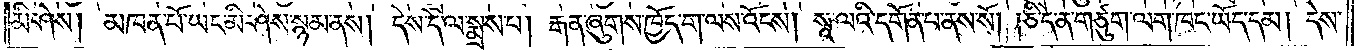མི་ཤེས། མཁན་པོ་ཡང་མི་ཤེས་སྙམ་ནས། དེས་དེ་ལ་སྨྲས་པ། རྒན་ཞུགས་ཁྱོད་ག་ལས་འོངས། སཱ་ལའི་དགོན་པ་ནས་སོ། །ཅི་དེ་ན་གཙུག་ལག་ཁང་ཡོད་དམ། དེས་
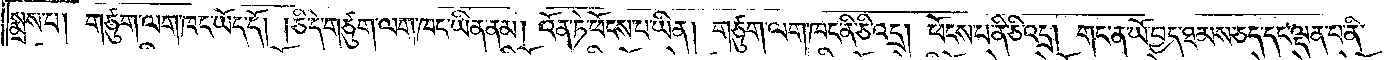སྨྲས་པ། གཙུག་ལག་ཁང་ཡོད་དོ། །ཅི་དེ་གཙུག་ལག་ཁང་ཡིན་ནམ། འོན་ཏེ་ཕོངས་པ་ཡིན། གཙུག་ལག་ཁང་ནི་ཅི་འདྲ། ཕོངས་པ་ནི་ཅི་འདྲ། གང་ན་ཡོ་བྱད་ཐམས་ཅད་དང་ལྡན་པ་ནི་
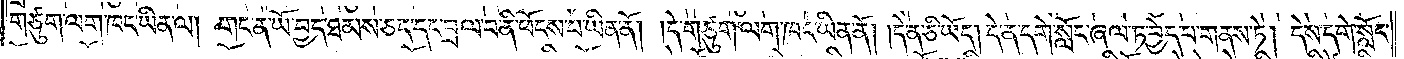གཙུག་ལག་ཁང་ཡིན་ལ། གང་ན་ཡོ་བྱད་ཐམས་ཅད་དང་བྲལ་བ་ནི་ཕོངས་པ་ཡིན་ནོ། །དེ་གཙུག་ལག་ཁང་ཡིན་ནོ། །དེ་ན་ཅི་ཡོད། དེ་ན་དགེ་སློང་ཞལ་ཏ་བྱེད་པ་གནས་ཏེ། དེས་དགེ་སློང་
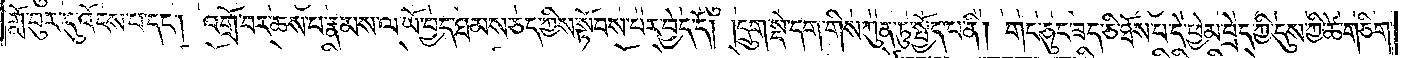གློ་བུར་དུ་འོངས་པ་དང༌། འགྲོ་བར་ཆས་པ་རྣམས་ལ་ཡོ་བྱད་ཐམས་ཅད་ཀྱིས་སྟོབས་པར་བྱེད་དོ། །དྲུག་སྡེ་དག་གིས་ཀུན་ཏུ་སྤྱོད་པ་ནི། གང་ཅུང་ཟད་ཅི་ཐོས་པ་དེ་ཕྱེམ་བྲེད་ཀྱི་དུས་ཀྱི་ཚེ་གཅིག་
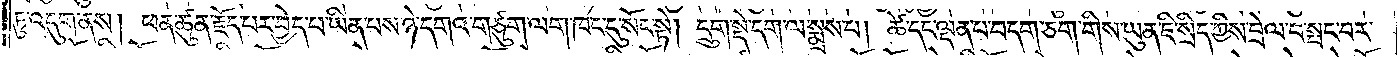ཏུ་འདུག་ནས། ཕན་ཚུན་རྗོད་པར་བྱེད་པ་ཡིན་པས་ཉེ་དགའ་གཙུག་ལག་ཁང་དུ་སོང་སྟེ། དྲུག་སྡེ་དག་ལ་སྨྲས་པ། ཚེ་དང་ལྡན་པ་བདག་ཅག་གིས་ཡུན་ཇི་སྲིད་ཀྱིས་བྲེལ་བ་སྤང་བར་
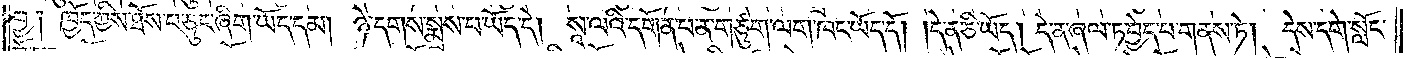བྱ༑ ཁྱོད་ཀྱིས་ཐོས་པ་ཅུང་ཞིག་ཡོད་དམ། ཉེ་དགས་སྨྲས་པ་ཡོད་དེ། སཱ་ལའི་དགོན་པ་ན་གཙུག་ལག་ཁང་ཡོད་དོ། །དེ་ན་ཅི་ཡོད། དེ་ན་ཞལ་ཏ་བྱེད་པ་གནས་ཏེ། དེས་དགེ་སློང་
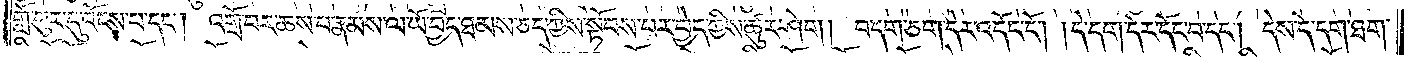གློ་བུར་དུ་འོངས་པ་དང༌། འགྲོ་བར་ཆས་པ་རྣམས་ལ་ཡོ་བྱད་ཐམས་ཅད་ཀྱིས་སྟོབས་པར་བྱེད་ཀྱིས་ཚུར་ཤེག། བདག་ཅག་དེར་འདོང་ངོ༌། །དེ་དག་དེར་དོང་བ་དང༌། དེས་དེ་དག་ཐག་
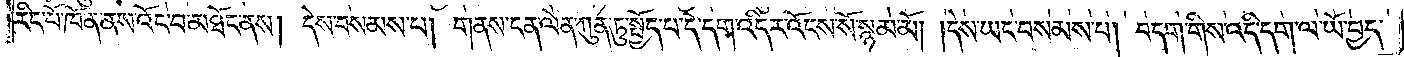རིང་པོ་ཁོ་ན་ནས་འོང་བ་མཐོང་ནས། དེས་བསམས་པ། གནས་ངན་ལེན་ཀུན་ཏུ་སྤྱོད་པ་དེ་དག་འདིར་འོངས་སོ་སྙམ་མོ། །དེས་ཡང་བསམས་པ། བདག་གིས་འདི་དག་ལ་ཡོ་བྱད་
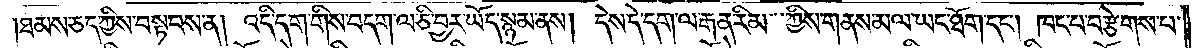ཐམས་ཅད་ཀྱིས་བསྟབས་ན། འདི་དག་གིས་བདག་ལ་ཅི་བྱར་ཡོད་སྙམ་ནས། དེས་དེ་དག་ལ་རྒན་རིམ་ཀྱིས་གནས་མལ་ཡང་ཐོག་དང༌། ཁང་པ་བརྩེགས་པ་
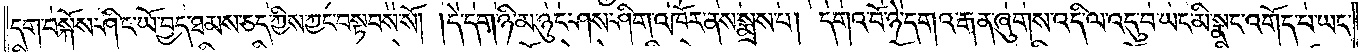དག་བསྐོས་ཤིང་ཡོ་བྱད་ཐམས་ཅད་ཀྱིས་ཀྱང་བསྟབས་སོ། །དེ་དག་ཉི་མ་ཉུང་ཤས་ཤིག་འཁོར་ནས་སྨྲས་པ། དགའ་བོ་ཉེ་དགའ་རྒན་ཞུགས་འདི་ལ་འདུ་བ་ཡང་མི་སྣང་འགོད་པ་ཡང་
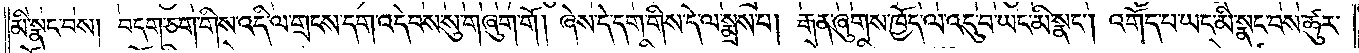མི་སྣང་བས། བདག་ཅག་གིས་འདི་ལ་གྲངས་དག་འདེབས་སུ་གཞུག་གོ། ཞེས་དེ་དག་གིས་དེ་ལ་སྨྲས་པ། རྒན་ཞུགས་ཁྱོད་ལ་འདུ་བ་ཡང་མི་སྣང༌། འགོད་པ་ཡང་མི་སྣང་བས་ཚུར་
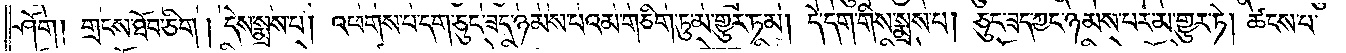ཤོག། གྲངས་ཐོབ་ཅིག །དེས་སྨྲས་པ། འཕགས་པ་དག་ཅུང་ཟད་ཉམས་པའམ་གཅིག་ཏུ་མ་གྱུར་ཏམ། དེ་དག་གིས་སྨྲས་པ། ཅུང་ཟད་ཀྱང་ཉམས་པར་མ་གྱུར་ཏེ། ཚངས་པ་
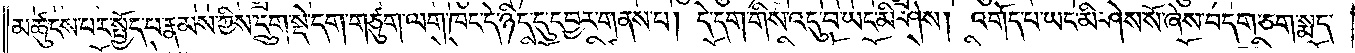མཚུངས་པར་སྤྱོད་པ་རྣམས་ཀྱིས་དྲུག་སྡེ་དག་གཙུག་ལག་ཁང་དེ་ཉིད་དུ་དབྱར་གནས་པ། དེ་དག་གིས་འདུ་བ་ཡང་མི་ཤེས། འགོད་པ་ཡང་མི་ཤེས་སོ་ཞེས་བདག་ཅག་སྨད་
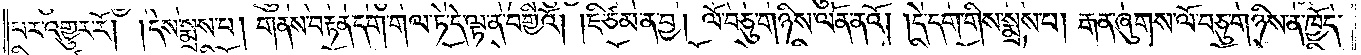པར་འགྱུར་རོ། །དེས་སྨྲས་པ། གནས་བརྟན་དག་གལ་ཏེ་དེ་ལྟ་ན་བགྱིའོ། །ཇི་ཙམ་ན་བྱ། ལོ་བཅུ་གཉིས་ལོན་ནའོ། །དེ་དག་གིས་སྨྲས་པ། རྒན་ཞུགས་ལོ་བཅུ་གཉིས་ན་ཁྱོད་
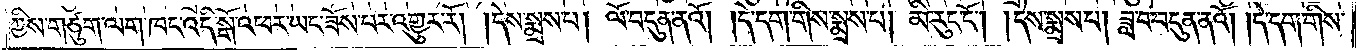ཀྱིས་གཙུག་ལག་ཁང་འདི་སྒོ་འཕར་ཡང་ཟོས་པར་འགྱུར་རོ། །དེས་སྨྲས་པ། ལོ་བདུན་ནའོ། །དེ་དག་གིས་སྨྲས་པ། མི་རུང་ངོ༌། །དེས་སྨྲས་པ། ཟླ་བ་བདུན་ནའོ། །དེ་དག་གིས་
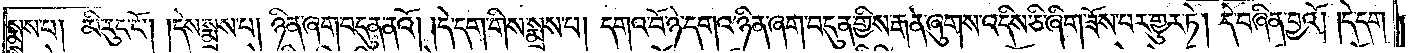སྨྲས་པ། མི་རུང་ངོ༌། །དེས་སྨྲས་པ། ཉིན་ཞག་བདུན་ནའོ། །དེ་དག་གིས་སྨྲས་པ། དགའ་བོ་ཉེ་དགའ་ཉིན་ཞག་བདུན་གྱིས་རྒན་ཞུགས་འདིས་ཅི་ཞིག་ཟོས་པར་གྱུར་ཏེ། དེ་བཞིན་བྱའོ། །དེ་དག་
